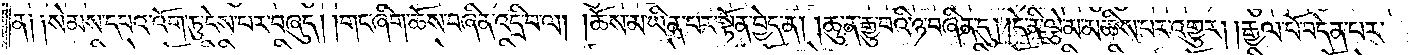ན༑ ༑སེམས་དཔའ་འོག་ཏུ་ངེས་པར་བཞུད། །གང་ཞིག་ཆོས་བཞིན་འདྲི་བ་ལ། །ཆོས་མ་ཡིན་པར་སྟོན་བྱེད་ན། །ཆུ་ན་རྒྱུ་བའི་ཉ་བཞིན་དུ། །དེ་ནི་ལྕེ་མ་མཆིས་པར་འགྱུར། །རྒྱལ་པོ་བདེན་པར་
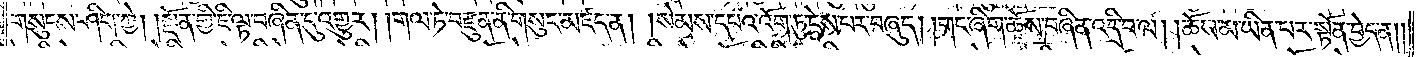གསུངས་ཤིག་ཀྱེ། །སྔོན་གྱི་ཇི་ལྟ་བཞིན་དུ་འགྱུར། །གལ་ཏེ་བརྫུན་ནི་གསུང་མཛད་ན། །སེམས་དཔའ་འོག་ཏུ་ངེས་པར་བཞུད། །གང་ཞིག་ཆོས་བཞིན་འདྲི་བ་ལ། །ཆོས་མ་ཡིན་པར་སྟོན་བྱེད་ན། །
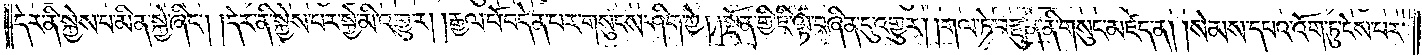དེར་ནི་སྐྱེས་པ་མིན་སྐྱེ་ཞིང༌། །དེར་ནི་སྐྱེས་པར་སྐྱེ་མི་འགྱུར། །རྒྱལ་པོ་བདེན་པར་གསུངས་ཤིག་ཀྱེ། །སྔོན་གྱི་ཇི་ལྟ་བཞིན་དུ་འགྱུར། །གལ་ཏེ་བརྫུན་ནི་གསུང་མཛད་ན། །སེམས་དཔའ་འོག་ཏུ་ངེས་པར་
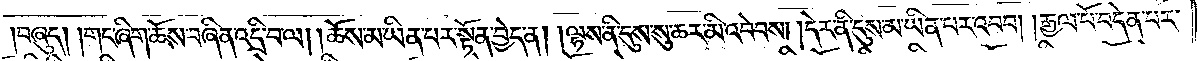བཞུད། །གང་ཞིག་ཆོས་བཞིན་འདྲི་བ་ལ། །ཆོས་མ་ཡིན་པར་སྟོན་བྱེད་ན། །ལྷས་ནི་དུས་སུ་ཆར་མི་འབེབས། །དེར་ནི་དུས་མ་ཡིན་པར་འབབ། །རྒྱལ་པོ་བདེན་པར་
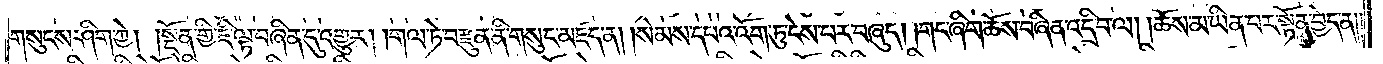གསུངས་ཤིག་ཀྱེ། །སྔོན་གྱི་ཇི་ལྟ་བཞིན་དུ་འགྱུར། །གལ་ཏེ་བརྫུན་ནི་གསུང་མཛད་ན། །སེམས་དཔའ་འོག་ཏུ་ངེས་པར་བཞུད། །གང་ཞིག་ཆོས་བཞིན་འདྲི་བ་ལ། །ཆོས་མ་ཡིན་པར་སྟོན་བྱེད་ན༎
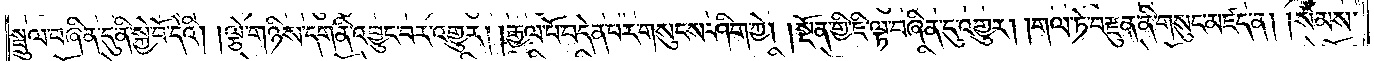སྤྲུལ་བཞིན་དུ་ནི་སྐྱེ་བོ་དེའི། །ལྕེ་གཉིས་དག་ནི་འབྱུང་བར་འགྱུར། །རྒྱལ་པོ་བདེན་པར་གསུངས་ཤིག་ཀྱེ། །སྔོན་གྱི་ཇི་ལྟ་བཞིན་དུ་འགྱུར། །གལ་ཏེ་བརྫུན་ནི་གསུང་མཛད་ན། །སེམས་
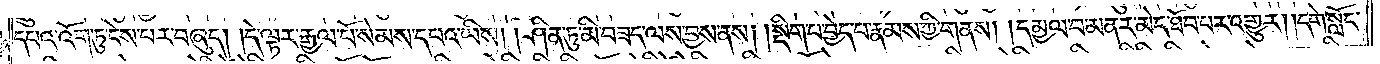དཔའ་འོག་ཏུ་ངེས་པར་བཞུད་།དེ་ལྟར་རྒྱལ་པོ་སེམས་དཔའ་ཡིས། །ཤིན་ཏུ་མི་བཟད་ལས་བྱས་ནས། །སྡིག་པ་བྱེད་པ་རྣམས་ཀྱི་གནས། །དམྱལ་བ་མནར་མེད་ཐོབ་པར་འགྱུར། །དགེ་སློང་
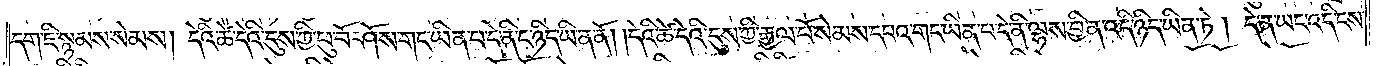དག་ཇི་སྙམས་སེམས། དེའི་ཚེ་དེའི་དུས་ཀྱི་ཕུ་བོ་ཤོས་གང་ཡིན་པ་དེ་ནི་ང་ཉིད་ཡིན་ནོ། །དེའི་ཚེ་དེའི་དུས་ཀྱི་རྒྱལ་པོ་སེམས་དཔའ་གང་ཡིན་པ་དེ་ནི་ལྷས་བྱིན་འདི་ཉིད་ཡིན་ཏེ། དེ་ན་ཡང་འདི་ངས་
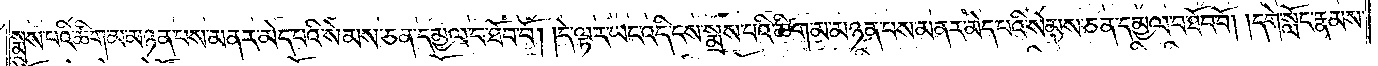སྨྲས་པའི་ཚིག་མ་མཉན་པས་མནར་མེད་པའི་སེམས་ཅན་དམྱལ་བ་ཐོབ་བོ། །དེ་ལྟར་ཡང་འདི་ངས་སྨྲས་པའི་ཚིག་མ་མཉན་པས་མནར་མེད་པའི་སེམས་ཅན་དམྱལ་བ་ཐོབ་བོ། །དགེ་སློང་རྣམས་
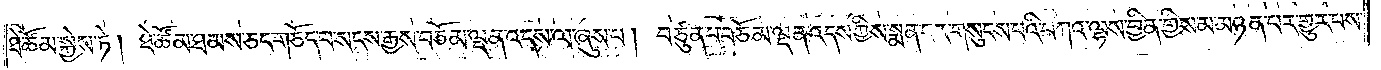ཐེ་ཚོམ་སྐྱེས་ཏེ། ཐེ་ཚོམ་ཐམས་ཅད་གཅོད་པ་སངས་རྒྱས་བཅོམ་ལྡན་འདས་ལ་ཞུས་པ། བཙུན་པ་བཅོམ་ལྡན་འདས་ཀྱིས་སྨན་པར་གསུངས་པའི་བཀའ་ལྷས་བྱིན་གྱིས་མ་མཉན་པར་གྱུར་པས་
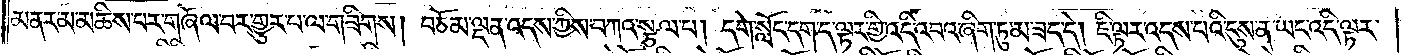མནར་མ་མཆིས་པར་གཞོལ་བར་གྱུར་པ་ལ་གཟིགས། བཅོམ་ལྡན་འདས་ཀྱིས་བཀའ་སྩལ་པ། དགེ་སློང་དག་ད་ལྟར་གྱི་འདི་འབའ་ཞིག་ཏུ་མ་ཟད་དེ། ཇི་ལྟར་འདས་པའི་དུས་ན་ཡང་འདི་ལྟར་
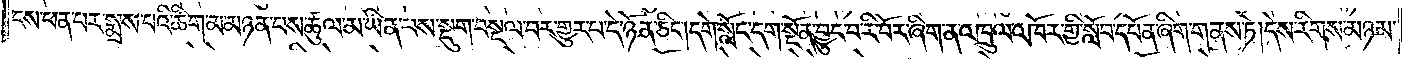ངས་ཕན་པར་སྨྲས་པའི་ཚིག་མ་མཉན་པས་ཚུལ་མ་ཡིན་པས་སྡུག་བསྔལ་བར་གྱུར་པ་དེ་ཉོན་ཅིང༌། དགེ་སློང་དག་སྔོན་བྱུང་བ་རི་བོར་ཞིག་ན་འཁྲུལ་འཁོར་གྱི་སློབ་དཔོན་ཞིག་གནས་ཏེ། དེས་རིགས་མཉམ་
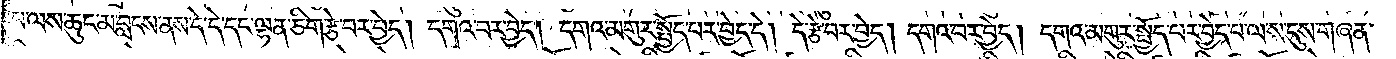པ་ལས་ཆུང་མ་བླངས་ནས་དེ་དེ་དང་ལྷན་ཅིག་རྩེ་བར་བྱེད། དགའ་བར་བྱེད། དགའ་མགུར་སྤྱོད་པར་བྱེད་དེ། དེ་རྩེ་བར་བྱེད། དགའ་བར་བྱེད། དགའ་མགུར་སྤྱོད་པར་བྱེད་པ་ལས་དུས་གཞན་
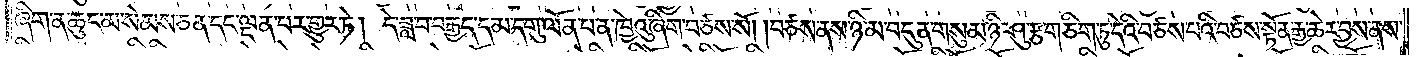ཞིག་ན་ཆུང་མ་སེམས་ཅན་དང་ལྡན་པར་གྱུར་ཏེ། དེ་ཟླ་བ་བརྒྱད་དམ་དགུ་ལོན་པ་ན་ཁྱེའུ་ཞིག་བཙས་སོ། །བཙས་ནས་ཉི་མ་བདུན་གསུམ་ཉི་ཤུ་རྩ་གཅིག་ཏུ་དེའི་བཙས་པའི་བཙས་སྟོན་རྒྱ་ཆེར་བྱས་ནས་
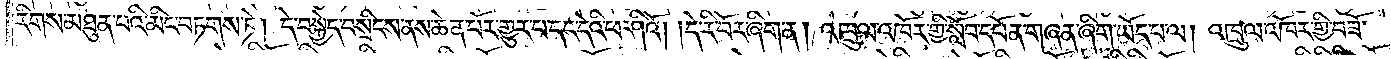རིགས་མཐུན་པའི་མིང་བཏགས་ཏེ། དེ་བསྐྱེད་བསྲིངས་ནས་ཆེན་པོར་གྱུར་པ་དང་དེའི་ཕ་ཤིའོ། །དེ་རི་བོར་ཞིག་ན། འཁྲུལ་འཁོར་གྱི་སློབ་དཔོན་གཞན་ཞིག་ཡོད་པ་ལ། འཁྲུལ་འཁོར་གྱི་བཟོ་
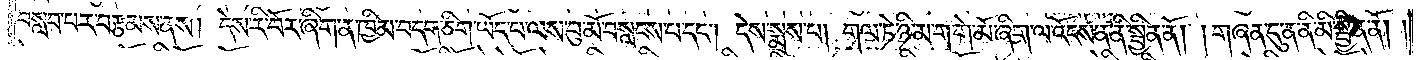བསླབ་པར་བརྩམས་ནས། དེས་རི་བོར་ཞིག་ན་ཁྱིམ་བདག་ཅིག་ཡོད་པ་ལས་བུ་མོ་བསླངས་པ་དང༌། དེས་སྨྲས་པ། གལ་ཏེ་ཉི་མ་ག་གེ་མོ་ཞིག་ལ་འོངས་ན་ནི་སྦྱིན་ནོ། །གཞན་དུ་ན་ནི་མི་སྦྱིན་ནོ། །
